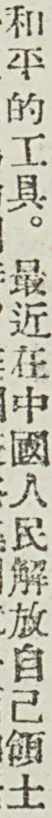和平的工具。最近在中國人民解放自己領土
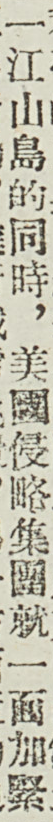一江山島的同時，美國侵略集團就一面加緊
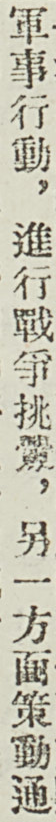軍事行動，進行戰爭挑釁，另一方面策動通
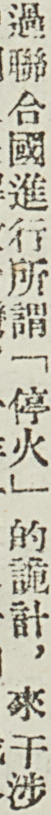過聯合國進行所謂「停火」的詭計，來干涉
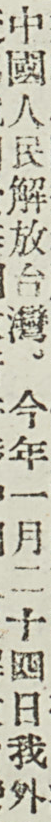中國人民解放台灣。今年一月二十四日我外
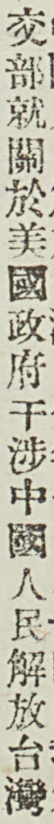交部就關於美國政府干涉中國人民解放台灣
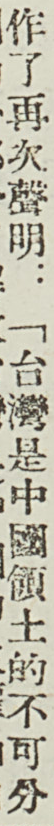作了再次聲明：「台灣是中國領土的不可分
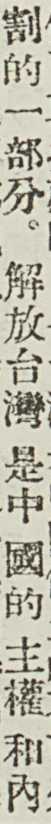割的一部分。解放台灣是中國的主權和內
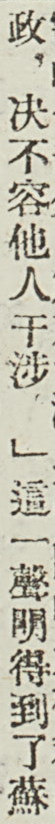政，決不容他人干涉。」這一聲明得到了蘇
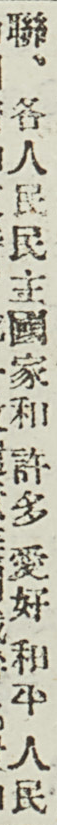聯、各人民民主國家和許多愛好和平人民
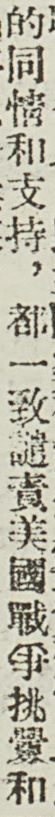的同情和支持，都一致譴責美國戰爭挑釁和
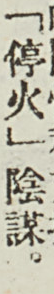「停火」陰謀。
